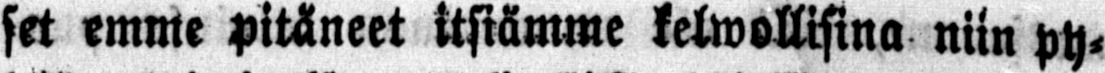set emme pitäneet itsiämme kelwollisina niin py-
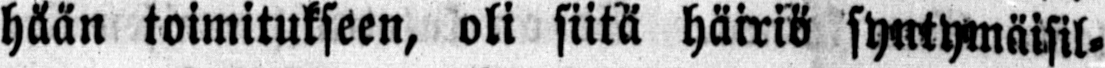hään toimitukseen, oli siitä häiriö syntymäisil-
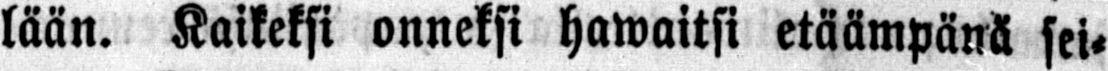lään. Kaikeksi onneksi hawaitsi etäämpänä sei-
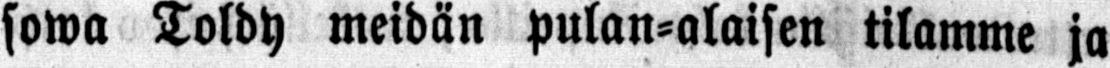sowa Toldy meidän pulan-alaisen tilamme ja
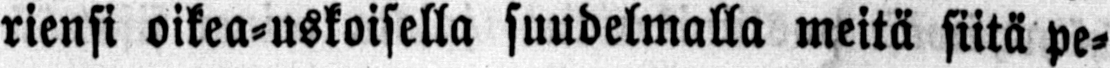riensi oikea-uskoisella suudelmalla meitä siitä pe-
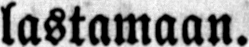lastamaan.
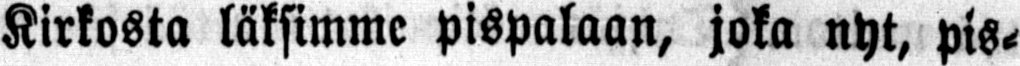Kirkosta läksimme pispalaan, joka nyt, pis-
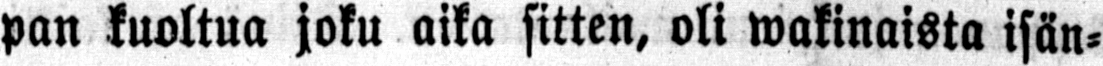pan kuoltua joku aika sitten, oli wakinaista isän-
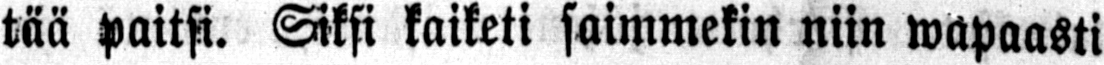tää paitsi. Siksi kaiketi saimmekin niin wapaasti
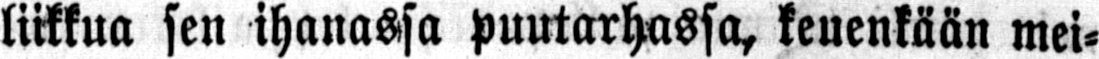liikkua sen ihanassa puutarhassa, keuenkään mei-
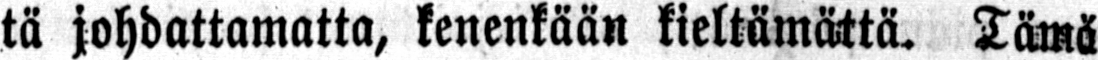tä johdattamatta, kenenkään kieltämättä. Tämä
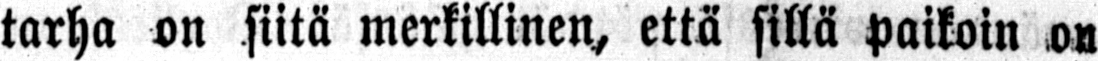tarha on siitä merkillinen, että sillä paikoin on
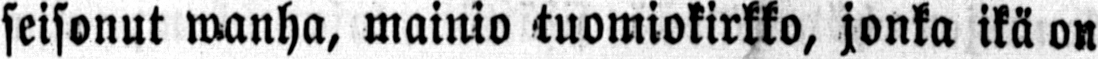seisonut wanha, mainio tuomiokirkko, jonka ikä on
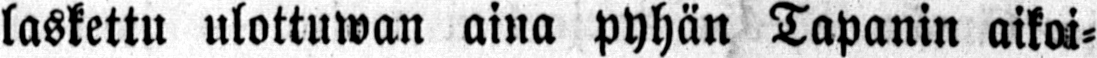laskettu ulottuwan aina pyhän Tapanin aikoi-
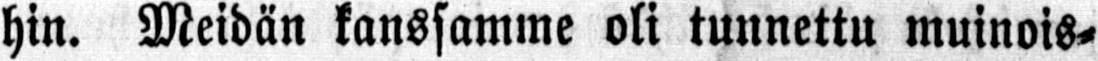hin. Meidän kanssamme oli tunnettu muinois-
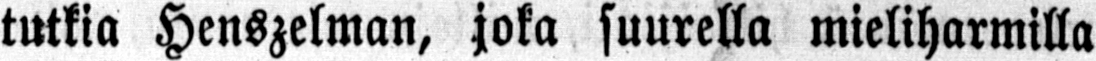tutkia Henszelman, joka suurella mieliharmilla
